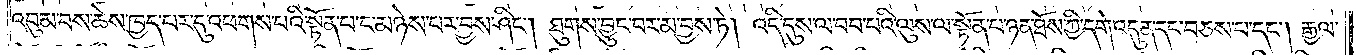འབུམ་པས་ཆེས་ཁྱད་པར་དུ་འཕགས་པའི་སྟོན་པ་ང་མཉེས་པར་བྱས་ཤིང༌། ཐུགས་བྱུང་བར་མ་བྱས་ཏེ། འདི་དུས་ལ་བབ་པའི་ལུས་ལ་སྟོན་པ་ཉན་ཐོས་ཀྱི་དགེ་འདུན་དང་བཅས་པ་དང༌། རྒྱལ་
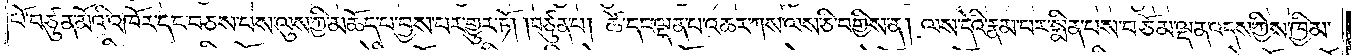པོ་བཙུན་མོའི་འཁོར་དང་བཅས་པས་ལུས་ཀྱི་མཆོད་པ་བྱས་པར་གྱུར་ཏོ། །བཙུན་པ། ཚེ་དང་ལྡན་པ་འཆར་ཀས་ལས་ཅི་བགྱིས་ན། ལས་དེའི་རྣམ་པར་སྨིན་པས་བཅོམ་ལྡན་འདས་ཀྱིས་ཁྱིམ་
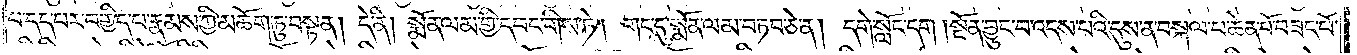པ་དད་པར་བགྱིད་པ་རྣམས་ཀྱི་མཆོག་ཏུ་བསྟན། དེ་ནི། སྨོན་ལམ་གྱི་དབང་གིས་ཏེ། གང་དུ་སྨོན་ལམ་བཏབ་ཅེ་ན། དགེ་སློང་དག །སྔོན་བྱུང་བ་འདས་པའི་དུས་ན་བསྐལ་པ་ཆེན་པོ་བཟང་པོ་
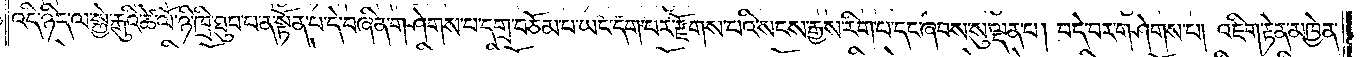འདི་ཉིད་ལ་སྐྱེ་རྒུའི་ཚེ་ལོ་ཉི་ཁྲི་ཐུབ་པ་ན་སྟོན་པ་དེ་བཞིན་གཤེགས་པ་དགྲ་བཅོམ་པ་ཡང་དག་པར་རྫོགས་པའི་སངས་རྒྱས་རིག་པ་དང་ཞབས་སུ་ལྡན་པ། བདེ་བར་གཤེགས་པ། འཇིག་རྟེན་མཁྱེན་
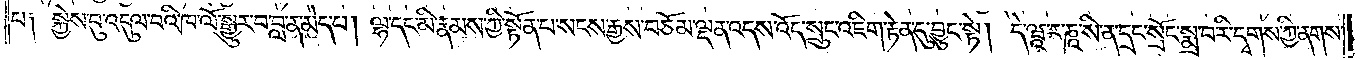པ༑ སྐྱེས་བུ་འདུལ་བའི་ཁ་ལོ་སྒྱུར་བ་བླ་ན་མེད་པ། ལྷ་དང་མི་རྣམས་ཀྱི་སྟོན་པ་སངས་རྒྱས་བཅོམ་ལྡན་འདས་འོད་སྲུང་འཇིག་རྟེན་དུ་བྱུང་སྟེ། དེ་ཝཱ་ར་ཎཱ་སི་ན་དྲང་སྲོང་སྨྲ་བ་རི་དྭགས་ཀྱི་ནགས་
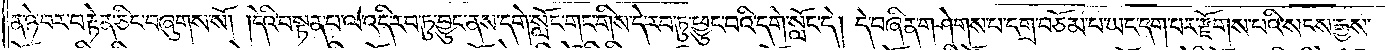ན་ཉེ་བར་བརྟེན་ཅིང་བཞུགས་སོ། །དེའི་བསྟན་པ་ལ་འདི་རབ་ཏུ་བྱུང་ནས་དགེ་སློང་གང་གིས་དེ་རབ་ཏུ་ཕྱུང་བའི་དགེ་སློང་དེ། དེ་བཞིན་གཤེགས་པ་དགྲ་བཅོམ་པ་ཡང་དག་པར་རྫོགས་པའི་སངས་རྒྱས་
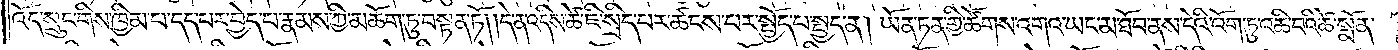འོད་སྲུང་གིས་ཁྱིམ་པ་དད་པར་བྱེད་པ་རྣམས་ཀྱི་མཆོག་ཏུ་བསྟན་ཏོ། །དེ་ན་འདིས་ཚེ་ཇི་སྲིད་པར་ཚངས་པར་སྤྱོད་པ་སྤྱད་ན། ཡོན་ཏན་གྱི་ཚོགས་འགའ་ཡང་མ་ཐོབ་ནས་དེའི་འོག་ཏུ་འཆི་བའི་ཚེ་སྨོན་
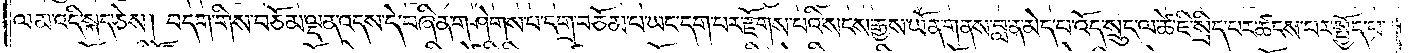ལམ་འདི་སྐད་ཅེས། བདག་གིས་བཅོམ་ལྡན་འདས་དེ་བཞིན་གཤེགས་པ་དགྲ་བཅོམ་པ་ཡང་དག་པར་རྫོགས་པའི་སངས་རྒྱས་ཡོན་གནས་བླ་ན་མེད་པ་འོད་སྲུང་ལ་ཚེ་ཇི་སྲིད་པར་ཚངས་པར་སྤྱོད་པ་
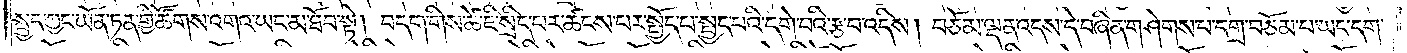སྤྱད་ཀྱང་ཡོན་ཏན་གྱི་ཚོགས་འགའ་ཡང་མ་ཐོབ་སྟེ། བདག་གིས་ཚེ་ཇི་སྲིད་པར་ཚངས་པར་སྤྱོད་པ་སྤྱད་པའི་དགེ་བའི་རྩ་བ་འདིས། བཅོམ་ལྡན་འདས་དེ་བཞིན་གཤེགས་པ་དགྲ་བཅོམ་པ་ཡང་དག་
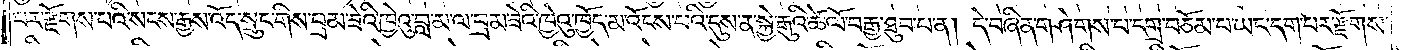པར་རྫོགས་པའི་སངས་རྒྱས་འོད་སྲུང་གིས་བྲམ་ཟེའི་ཁྱེའུ་བླ་མ་ལ་བྲམ་ཟེའི་ཁྱེའུ་ཁྱོད་མ་འོངས་པའི་དུས་ན་སྐྱེ་རྒུའི་ཚེ་ལོ་བརྒྱ་ཐུབ་པ་ན། དེ་བཞིན་གཤེགས་པ་དགྲ་བཅོམ་པ་ཡང་དག་པར་རྫོགས་
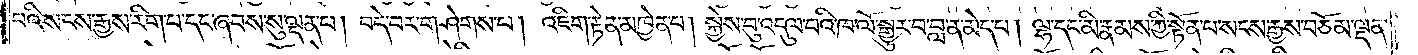པའི་སངས་རྒྱས་རིག་པ་དང་ཞབས་སུ་ལྡན་པ། བདེ་བར་གཤེགས་པ། འཇིག་རྟེན་མཁྱེན་པ། སྐྱེས་བུ་འདུལ་བའི་ཁ་ལོ་སྒྱུར་བ་བླ་ན་མེད་པ། ལྷ་དང་མི་རྣམས་ཀྱི་སྟོན་པ་སངས་རྒྱས་བཅོམ་ལྡན་
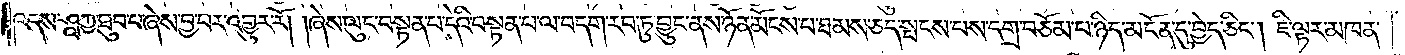འདས་ཤཱཀྱ་ཐུབ་པ་ཞེས་བྱ་བར་འགྱུར་རོ། །ཞེས་ལུང་བསྟན་པ་དེའི་བསྟན་པ་ལ་བདག་རབ་ཏུ་བྱུང་ནས་ཉོན་མོངས་པ་ཐམས་ཅད་སྤངས་པས་དགྲ་བཅོམ་པ་ཉིད་མངོན་དུ་བྱེད་ཅིང༌། ཇི་ལྟར་མཁན་
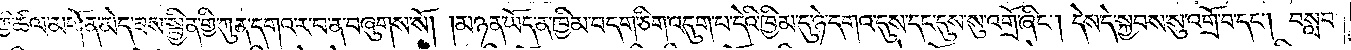ཀྱི་ཚལ་མགོན་མེད་ཟས་སྦྱིན་གྱི་ཀུན་དགའ་ར་བ་ན་བཞུགས་སོ། །མཉན་ཡོད་ན་ཁྱིམ་བདག་ཅིག་འདུག་པ་དེའི་ཁྱིམ་དུ་ཉེ་དགའ་དུས་དང་དུས་སུ་འགྲོ་ཞིང༌། དེས་དེ་སྐྱབས་སུ་འགྲོ་བ་དང༌། བསླབ་
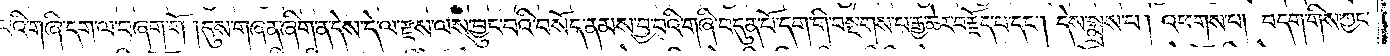པའི་གཞི་དག་ལ་བཞག་གོ །དུས་གཞན་ཞིག་ན་དེས་དེ་ལ་རྫས་ལས་བྱུང་བའི་བསོད་ནམས་བྱ་བའི་གཞི་བདུན་པོ་དག་གི་བསྔགས་བ་རྒྱ་ཆེར་བརྗོད་པ་དང༌། དེས་སྨྲས་པ། འཕགས་པ། བདག་གིས་ཀྱང་
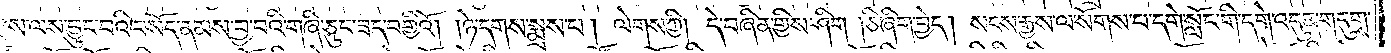རྫས་ལས་བྱུང་བའི་བསོད་ནམས་བྱ་བའི་གཞི་ཅུང་ཟད་བགྱིའོ། །ཉེ་དགས་སྨྲས་པ། ལེགས་ཀྱི། དེ་བཞིན་གྱིས་ཤིག །ཅི་ཞིག་བྱེད། སངས་རྒྱས་ལ་སོགས་པ་དགེ་སློང་གི་དགེ་འདུན་གདུགས་
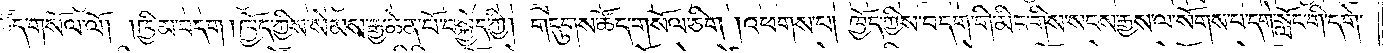ཚོད་གསོལ་ལོ། །ཁྱིམ་བདག །ཁྱོད་ཀྱིས་སེམས་རྒྱ་ཆེན་པོ་བསྐྱེད་ཀྱི། གདུགས་ཚོད་གསོལ་ཅིག །འཕགས་པ། ཁྱོད་ཀྱིས་བདག་གི་མིང་གིས་སངས་རྒྱས་ལ་སོགས་པ་དགེ་སློང་གི་དགེ་
